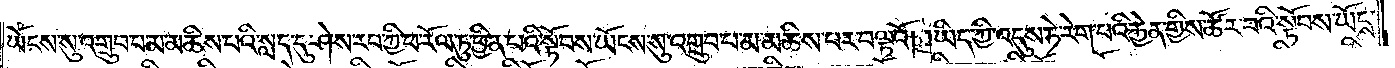ཡོངས་སུ་འགྲུབ་པ་མ་མཆིས་པའི་སླད་དུ་ཤེས་རབ་ཀྱི་ཕ་རོལ་ཏུ་ཕྱིན་པའི་སྟོབས་ཡོངས་སུ་འགྲུབ་པ་མ་མཆིས་པར་བལྟའོ། །ཡིད་ཀྱི་འདུས་ཏེ་རེག་པའི་རྐྱེན་གྱིས་ཚོར་བའི་སྟོབས་ཡོངས་
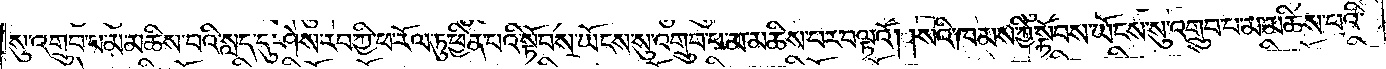སུ་འགྲུབ་པ་མ་མཆིས་པའི་སླད་དུ་ཤེས་རབ་ཀྱི་ཕ་རོལ་ཏུ་ཕྱིན་པའི་སྟོབས་ཡོངས་སུ་འགྲུབ་པ་མ་མཆིས་པར་བལྟའོ། །སའི་ཁམས་ཀྱི་སྟོབས་ཡོངས་སུ་འགྲུབ་པ་མ་མཆིས་པའི་
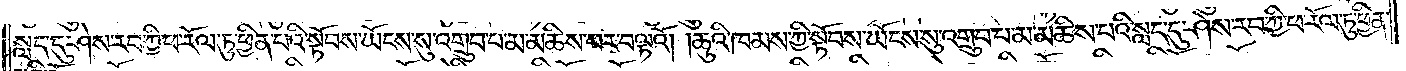སླད་དུ་ཤེས་རབ་ཀྱི་ཕ་རོལ་ཏུ་ཕྱིན་པའི་སྟོབས་ཡོངས་སུ་འགྲུབ་པ་མ་མཆིས་པར་བལྟའོ། །ཆུའི་ཁམས་ཀྱི་སྟོབས་ཡོངས་སུ་འགྲུབ་པ་མ་མཆིས་པའི་སླད་དུ་ཤེས་རབ་ཀྱི་ཕ་རོལ་ཏུ་ཕྱིན་
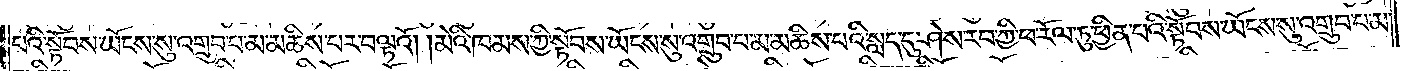པའི་སྟོབས་ཡོངས་སུ་འགྲུབ་པ་མ་མཆིས་པར་བལྟའོ། །མེའི་ཁམས་ཀྱི་སྟོབས་ཡོངས་སུ་འགྲུབ་པ་མ་མཆིས་པའི་སླད་དུ་ཤེས་རབ་ཀྱི་ཕ་རོལ་ཏུ་ཕྱིན་པའི་སྟོབས་ཡོངས་སུ་འགྲུབ་པ་མ་
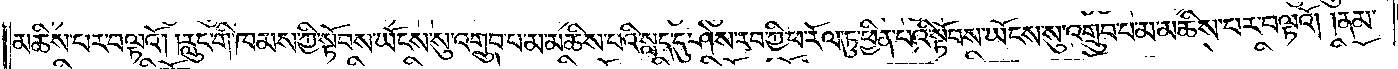མཆིས་པར་བལྟའོ། །རླུང་གི་ཁམས་ཀྱི་སྟོབས་ཡོངས་སུ་འགྲུབ་པ་མ་མཆིས་པའི་སླད་དུ་ཤེས་རབ་ཀྱི་ཕ་རོལ་ཏུ་ཕྱིན་པའི་སྟོབས་ཡོངས་སུ་འགྲུབ་པ་མ་མཆིས་པར་བལྟའོ། །ནམ་
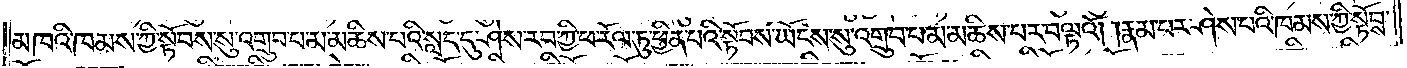མཁའི་ཁམས་ཀྱི་སྟོབས་ཡོངས་སུ་འགྲུབ་པ་མ་མཆིས་པའི་སླད་དུ་ཤེས་རབ་ཀྱི་ཕ་རོལ་ཏུ་ཕྱིན་པའི་སྟོབས་ཡོངས་སུ་འགྲུབ་པ་མ་མཆིས་པར་བལྟའོ། །རྣམ་པར་ཤེས་པའི་ཁམས་ཀྱི་སྟོབས་
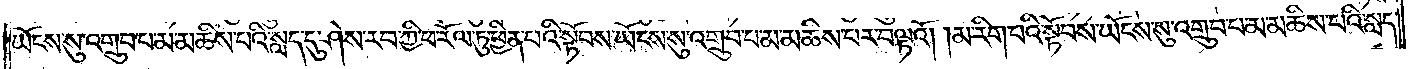ཡོངས་སུ་འགྲུབ་པ་མ་མཆིས་པའི་སླད་དུ་ཤེས་རབ་ཀྱི་ཕ་རོལ་ཏུ་ཕྱིན་པའི་སྟོབས་ཡོངས་སུ་འགྲུབ་པ་མ་མཆིས་པར་བལྟའོ། །མ་རིག་པའི་སྟོབས་ཡོངས་སུ་འགྲུབ་པ་མ་མཆིས་པའི་སླད་
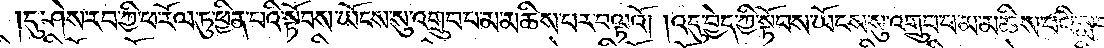དུ་ཤེས་རབ་ཀྱི་ཕ་རོལ་ཏུ་ཕྱིན་པའི་སྟོབས་ཡོངས་སུ་འགྲུབ་པ་མ་མཆིས་པར་བལྟའོ། །འདུ་བྱེད་ཀྱི་སྟོབས་ཡོངས་སུ་འགྲུབ་པ་མ་མཆིས་པའི་སླད་
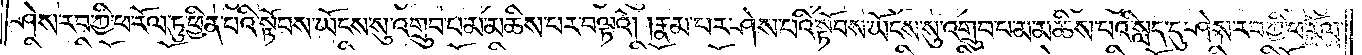ཤེས་རབ་ཀྱི་ཕ་རོལ་ཏུ་ཕྱིན་པའི་སྟོབས་ཡོངས་སུ་འགྲུབ་པ་མ་མཆིས་པར་བལྟའོ། །རྣམ་པར་ཤེས་པའི་སྟོབས་ཡོངས་སུ་འགྲུབ་པ་མ་མཆིས་པའི་སླད་དུ་ཤེས་རབ་ཀྱི་ཕ་རོལ་
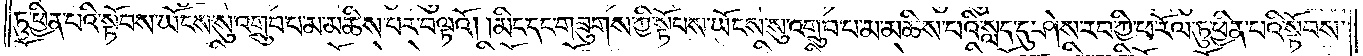ཏུ་ཕྱིན་པའི་སྟོབས་ཡོངས་སུ་འགྲུབ་པ་མ་མཆིས་པར་བལྟའོ། །མིང་དང་གཟུགས་ཀྱི་སྟོབས་ཡོངས་སུ་འགྲུབ་པ་མ་མཆིས་པའི་སླད་དུ་ཤེས་རབ་ཀྱི་ཕ་རོལ་ཏུ་ཕྱིན་པའི་སྟོབས་
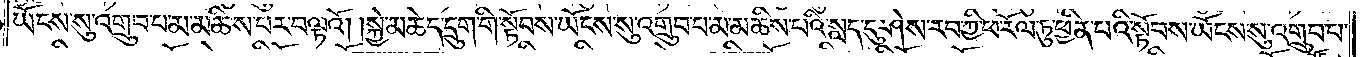ཡོངས་སུ་འགྲུབ་པ་མ་མཆིས་པར་བལྟའོ། །སྐྱེ་མཆེད་དྲུག་གི་སྟོབས་ཡོངས་སུ་འགྲུབ་པ་མ་མཆིས་པའི་སླད་དུ་ཤེས་རབ་ཀྱི་ཕ་རོལ་ཏུ་ཕྱིན་པའི་སྟོབས་ཡོངས་སུ་འགྲུབ་པ་
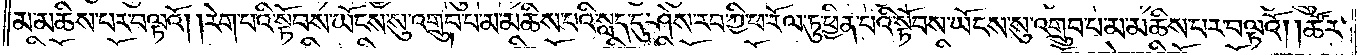མ་མཆིས་པར་བལྟའོ། །རེག་པའི་སྟོབས་ཡོངས་སུ་འགྲུབ་པ་མ་མཆིས་པའི་སླད་དུ་ཤེས་རབ་ཀྱི་ཕ་རོལ་ཏུ་ཕྱིན་པའི་སྟོབས་ཡོངས་སུ་འགྲུབ་པ་མ་མཆིས་པར་བལྟའོ། །ཚོར་
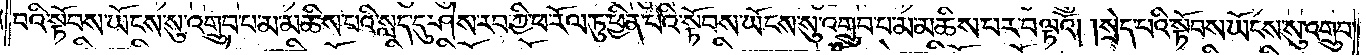བའི་སྟོབས་ཡོངས་སུ་འགྲུབ་པ་མ་མཆིས་པའི་སླད་དུ་ཤེས་རབ་ཀྱི་ཕ་རོལ་ཏུ་ཕྱིན་པའི་སྟོབས་ཡོངས་སུ་འགྲུབ་པ་མ་མཆིས་པར་བལྟའོ། །སྲེད་པའི་སྟོབས་ཡོངས་སུ་འགྲུབ་
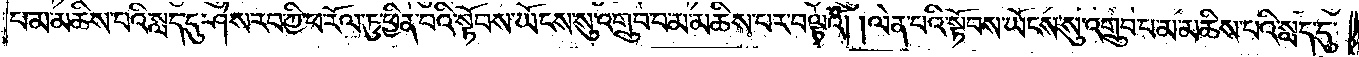པ་མ་མཆིས་པའི་སླད་དུ་ཤེས་རབ་ཀྱི་ཕ་རོལ་ཏུ་ཕྱིན་པའི་སྟོབས་ཡོངས་སུ་འགྲུབ་པ་མ་མཆིས་པར་བལྟའོ། །ལེན་པའི་སྟོབས་ཡོངས་སུ་འགྲུབ་པ་མ་མཆིས་པའི་སླད་དུ་
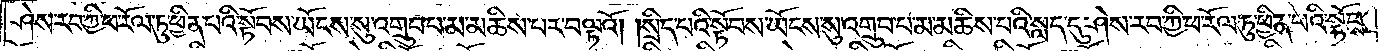ཤེས་རབ་ཀྱི་ཕ་རོལ་ཏུ་ཕྱིན་པའི་སྟོབས་ཡོངས་སུ་འགྲུབ་པ་མ་མཆིས་པར་བལྟའོ། །སྲིད་པའི་སྟོབས་ཡོངས་སུ་འགྲུབ་པ་མ་མཆིས་པའི་སླད་དུ་ཤེས་རབ་ཀྱི་ཕ་རོལ་ཏུ་ཕྱིན་པའི་སྟོབས་
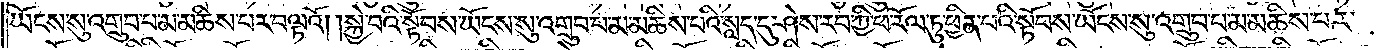ཡོངས་སུ་འགྲུབ་པ་མ་མཆིས་པར་བལྟའོ། །སྐྱེ་བའི་སྟོབས་ཡོངས་སུ་འགྲུབ་པ་མ་མཆིས་པའི་སླད་དུ་ཤེས་རབ་ཀྱི་ཕ་རོལ་ཏུ་ཕྱིན་པའི་སྟོབས་ཡོངས་སུ་འགྲུབ་པ་མ་མཆིས་པར་
